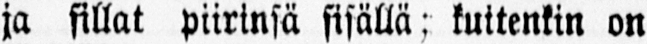ja sillat piirinsä sisällä: kuitenkin on
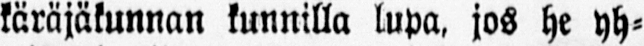käräjäkunnan kunnilla lupa, jos he yh-
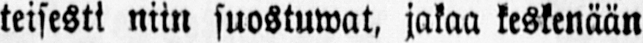teisesti niin suostuwat, jakaa keskenään
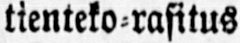tienteko-rasitus
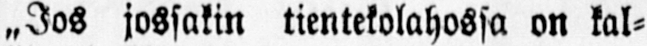„Jos jossakin tientekolahossa on kal-
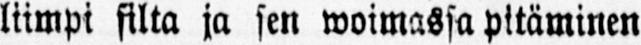liimpi silta ja sen woimassa pitäminen
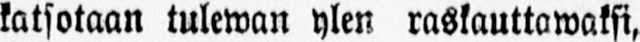katsotaan tuleman ylen raskauttamaksi,
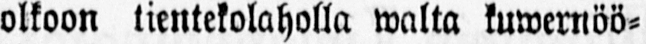olkoon tientekolaholla walta kuwernöö-
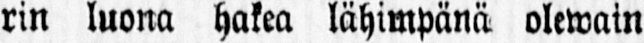rin luona hakea lähimpänä olewain
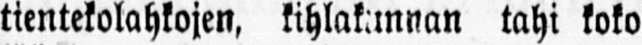tientekolahkojen, kihlakunnan tahi koko
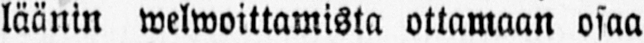läänin welwoittamista ottamaan osaa
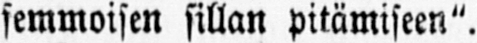semmoisen sillan pitämiseen".
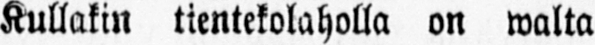Kullakin tientekolaholla on walta
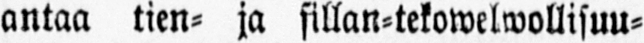antaa tien- ja sillan-tekowelwollisuu-
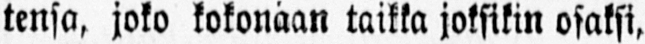tensa, joko kokonaan taikka joksikin osaksi,
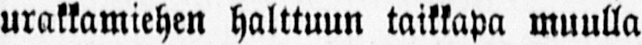urakkamiehen halttuun taikkapa muulla
